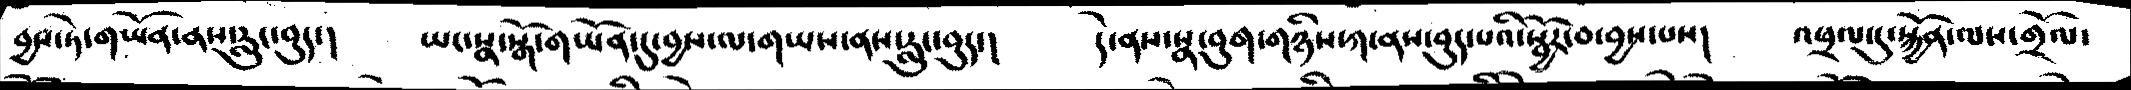བྱས་ཏེ་གཡོན་ནས་རླུང་བུད་།   ཡང་སྣ་སྒོ་གཡོན་དུ་བྱས་ལ་གཡས་ནས་རླུང་བུད་།   དེ་ནས་སྣ་བུག་གཉིས་ཀ་ནས་བུད་པའི་སྦྱོར་བ་བྱས་པས།  འཕྲལ་དུ་སྐྱོན་ལས་གྲོལ་
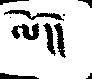ལོ།།
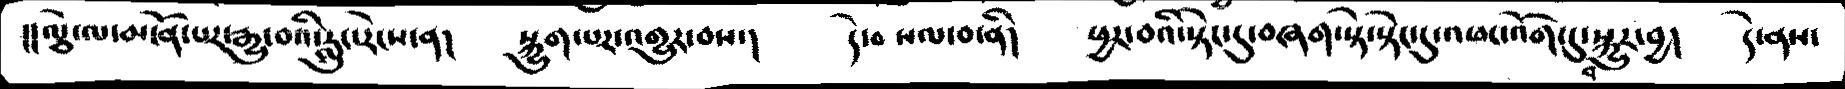།།ལྕེ་ལ་མངོན་པར་རྒྱུ་བའི་རླུང་རེངས་ན།   སྐྱུག་པར་འགྱུར་བས་།   དེ་བསལ་བ་ནི།   ཕྱར་བའི་སྟེང་དུ་བཞག་སྟེ་སྟེང་དུ་འཕང་འོག་དུ་བསྐྱུར་བྱ།  དེ་ནས་
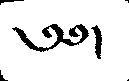༄༅།
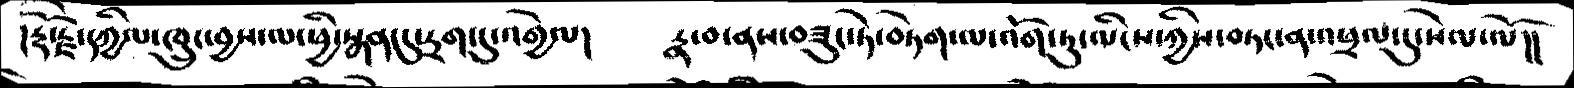།རྡོ་རྗེ་དཀྱིལ་ཁྲུང་བྱས་ལ་ཕྱི་སྒན་དུ་དྲག་དུ་འགྱེལ།   རྣ་བ་ནས་བཟུང་ཏེ་བཏེག་ལ་འོག་ཏུ་ལིངས་ཀྱིས་བཏང་ན་འཕྲལ་དུ་སེལ་ལོ།།
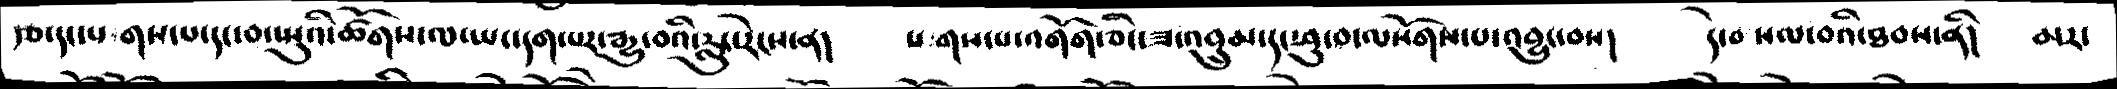རྩ་དང་པགས་པ་དང་བ་སྤུའི་ཚོགས་ལ་ཡང་དག་པར་རྒྱུ་བའི་རླུང་རེངས་ན།   པགས་པ་འགོག་ཅིང་ཟ་འབྲུམ་དང་ཕུ་བ་ལསོགས་པ་འབྱུང་བས།   དེ་བསལ་བའི་ཐབས་ནི།  མར་
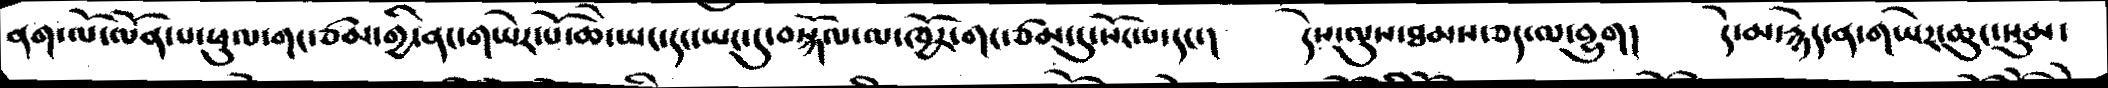ནག་ལོ་ལོན་པ་ཕུལ་གང་ཙམ་གྱི་ནང་གཡེར་པོ་ཆེ་ཡང་དང་ཡང་དུ་བསྐོལ་ལ་ཁྱོར་གང་ཙམ་དུ་སོང་པ་དང་།   དེས་ལུས་ཐམས་ཅད་ལ་བྱུག།   དེ་མ་རྙེད་ན་གཡེར་ཆུང་སུམ་
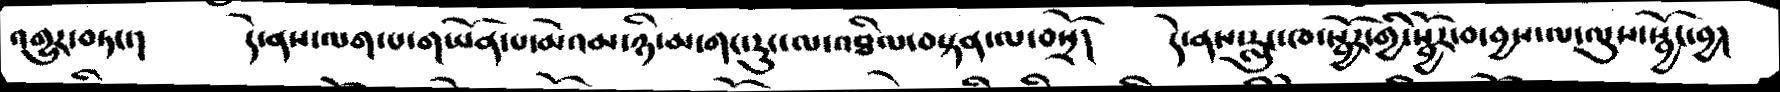འགྱུར་བཏང་།   དེ་ནས་ལག་པ་གཡོན་པ་མེའམ་ཉི་མ་གང་རུང་ལ་འཐིལ་བསྟན་ལ་བསྲོ།   དེ་ནས་རླུང་ཁ་སྦྱོར་གྱི་སྦྱོར་བ་བྱས་ལ་ལུས་སྦྱོར་བྱ།
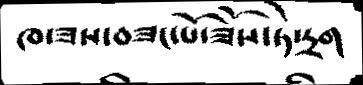ཁ་ཟས་བཟང་པོ་ཟོས་ཏེ་དྲག
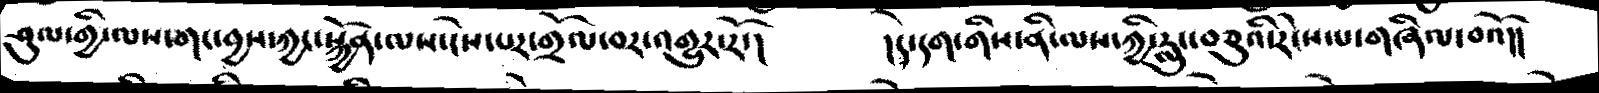ཤུལ་གྱི་ལས་གང་བྱས་ཀྱང་སྐྱོན་ལས་ངེས་པར་གྲོལ་བར་འགྱུར་རོ་།   །དེ་དག་གིས་ནི་ལས་ཀྱི་རླུང་བཅུའི་རེངས་པ་གཞིལ་བའོ།།
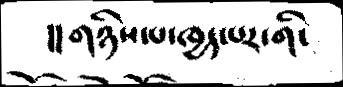།།གཉིས་པ་ཁྱད་པར་གི་
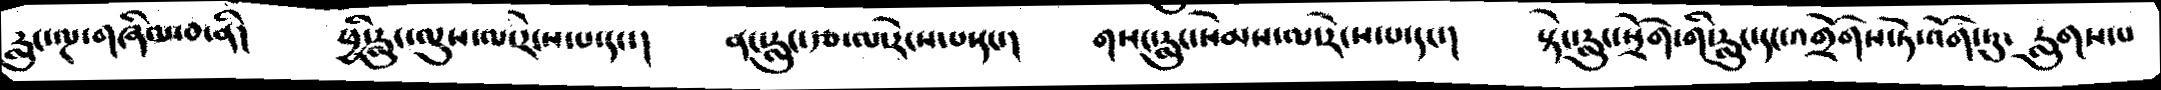རླུང་ལྔ་གཞིལ་བ་ནི།   ཕྱི་རླུང་ལུས་ལ་རེངས་པ་དང་།   ནང་རླུང་རྩ་ལ་རེངས་པ་དང་།   གསང་རླུང་སེམས་ལ་རེངས་པ་དང་།  སྟེང་རླུང་སྲོག་གི་རླུང་དང་འགྲོགས་ཏེ་འོག་ཏུ་ རླུགས་པ
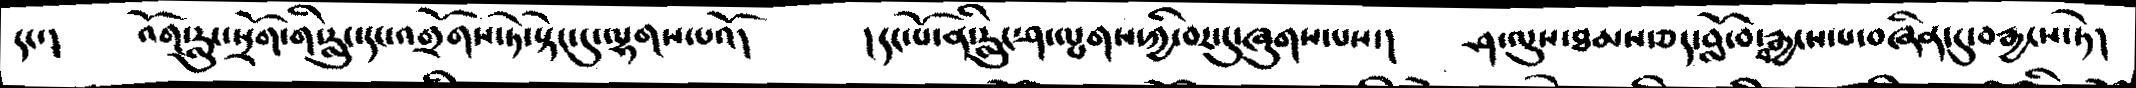དང་།   འོག་རླུང་སྲོག་གི་རླུང་དང་འགྲོགས་ཏེ་སྟེང་དུ་ལྷགས་པའོ།   །དང་པོ་ནི་རླུང་ཤ་ལྤགས་ཀྱི་བར་དུ་ཞུགས་པས་།   ཤ་ལུས་ཐམས་ཅད་བློ་བ་བརྒྱངས་པ་བཞིན་དུ་བརྒྱངས་ཏེ།
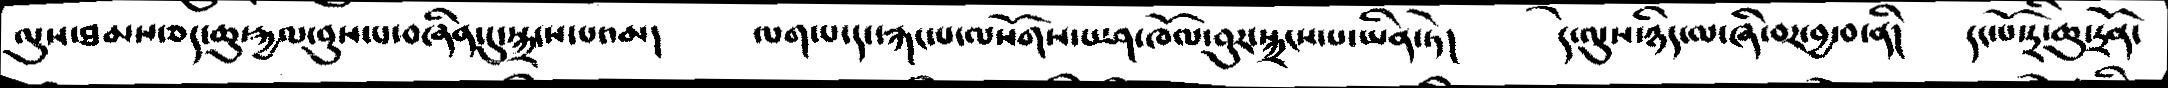ལུས་ཐམས་ཅད་ཆུ་རྐྱལ་བུས་པ་བཞིན་དུ་སྐྲངས་པའམ།   ལག་པ་དང་རྐང་པ་ལསོགས་པ་ཤ་ཁོལ་བུར་སྐྲངས་པ་ཡིན་ཏེ།   དེ་ལུས་ཉིད་ལ་ཞི་བར་བྱ་བ་ནི།   དང་པོ་དྲི་ཆུ་དྲོན་
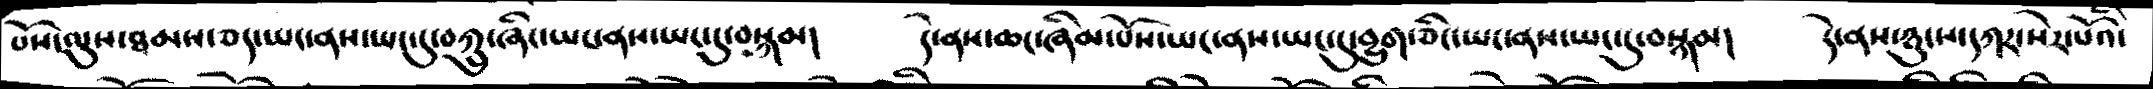པོས་ལུས་ཐམས་ཅད་ཡང་ནས་ཡང་དུ་བཀྲུ་ཞིང་ཡང་ནས་ཡང་དུ་བསྐམ།   དེ་ནས་ཆང་ཞིམ་པོས་ཡང་ནས་ཡང་དུ་བྱུག་ཅིང་ཡང་ནས་ཡང་དུ་བསྐམ།   དེ་ནས་ཉུངས་དཀར་སེར་པོའི་
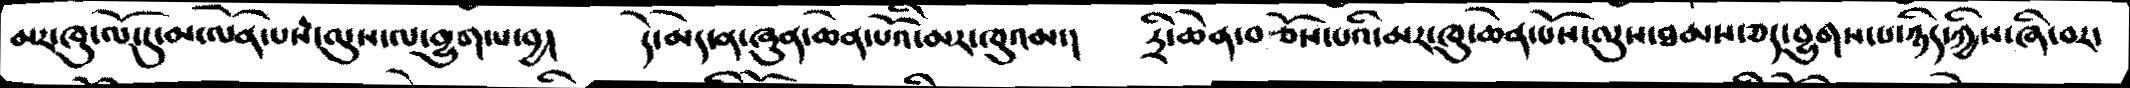མར་ཁུ་ལོ་དུ་མ་ལོན་པས་ལུས་ལ་བྱུག་པ་བྱ།   དེ་མེད་ན་ཞུན་ཆེན་པོའི་མར་ཁུའམ།   དྲི་ཆེན་བཅོས་པའི་མར་ཁུ་ཆེན་པོས་ལུས་ཐམས་ཅད་བྱུགས་པ་ཉིད་ཀྱིས་ཞི་བར་
